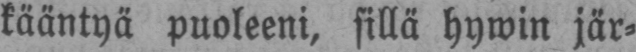kääntyä puoleeni, sillä hywin jär-
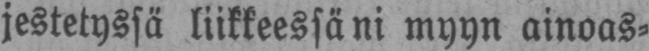jestetyssä liikkeessäni myyn ainoas-
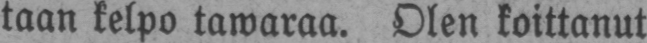taan kelpo tawaraa. Olen koittanut
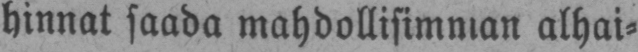hinnat saada mahdollisimman alhai-
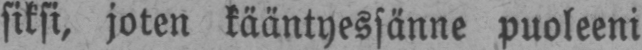siksi, joten kääntyessänne puoleeni
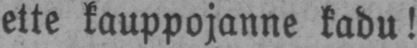ette kauppojanne kadu!
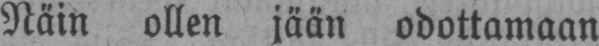Näin ollen jään odottamaan
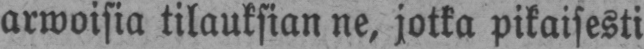arwoisia tilauksian ne, jotka pikaisesti
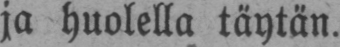ja huolella täytän.
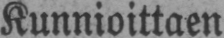Kunnioittaen
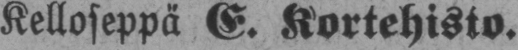Kelloseppä E. Kortehisto.
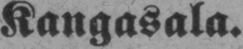Kangasala.
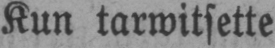Kun tarwitsette
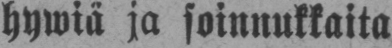hywiä ja soinnukkaita
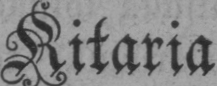Kitaria
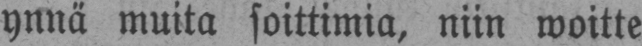ynnä muita soittimia, niin woitte
